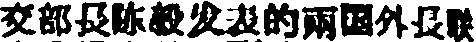支部長陈毅发表的兩国外長聯
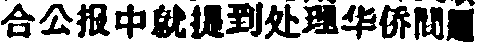合公报中就提到处理华侨問題
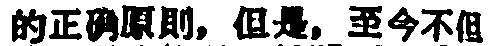的正确原則，但是，至今不但
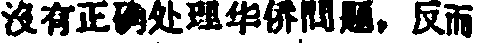沒有正确处理华侨問題，反而
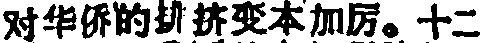对华侨的排挤变本加厉。十二
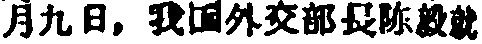月九日，我国外交部長陈毅就
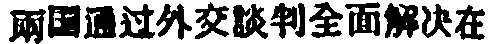兩国通过外交談判全面解決在
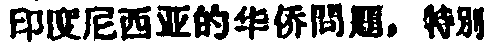印度尼西亞的华侨問題，特別
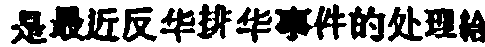是最近反华排华事件的处理給
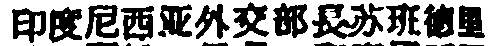印度尼西亚外交部長苏班德里
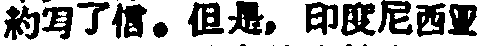約写了信。但是，印度尼西亚
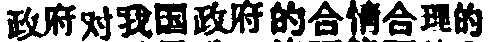政府对我国政府的合情合理的
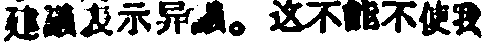建議表示异議。这不能不使我
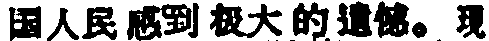国人民感到极大的遺憾。現
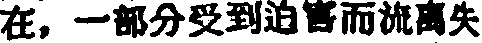在，一部分受到迫害而流离失
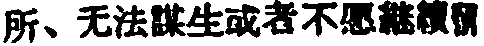所、无法謀生或者不愿継續旅
